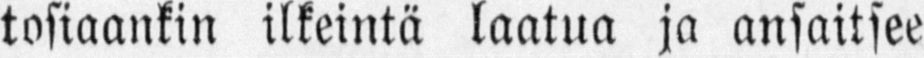tosiaankin ilkeintä laatua ja ansaitsee
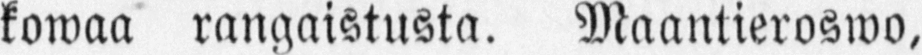kowaa rangaistusta. Maantieroswo,
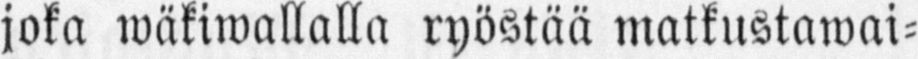joka wäkiwallalla ryöstää matkustawai-
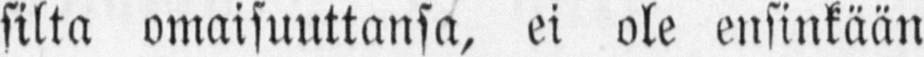silta omaisuuttansa, ei ole ensinkään
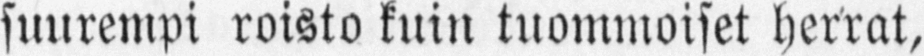suurempi roisto kuin tuommoiset herrat,
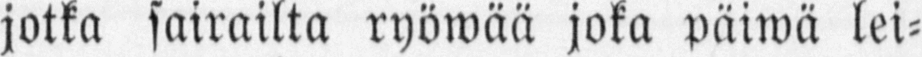jotka sairailta ryöwää joka päiwä lei-
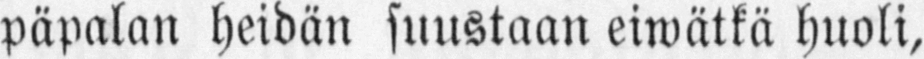päpalan heidän sillistään eiwätkä huoli,
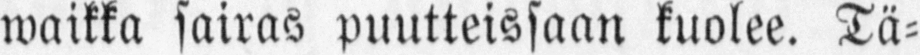waikka sairas puutteissaan kuolee. Tä-
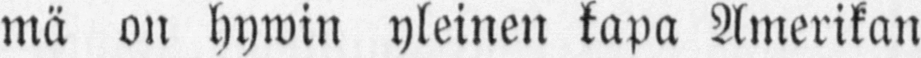mä on hywin yleinen tapa Amerikan
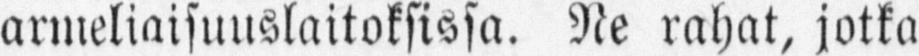armeliaisuuslaitoksissa. Ne rahat, jotka
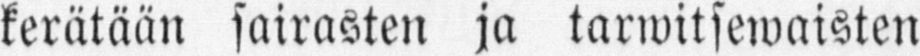kerätään sairasten ja tarwitsewaisten
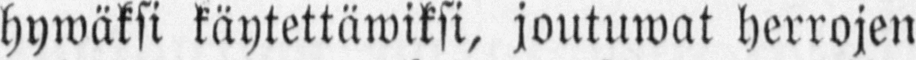hywäksi käytettäwiksi, joutuwat herrojen
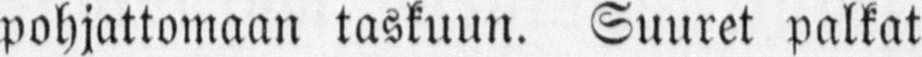pohjattomaan taskuun. Suuret palkat
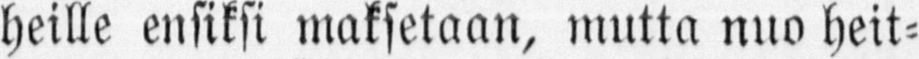heille ensiksi maksetaan, mutta nuo heit-
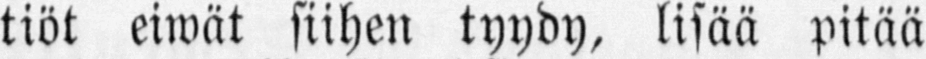tiöt eiwät siihen tyydy, lisää pitää
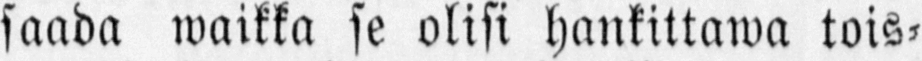saada waikka se olisi hankittawa tois-
